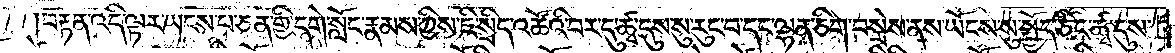།བརྟན་འདི་ལྟར་ཡངས་པ་ཅན་གྱི་དགེ་སློང་རྣམས་ཀྱིས་ཇི་སྲིད་འཚོའི་བར་དུ་ཚྭ་དུས་སུ་རུང་བ་དང་ལྷན་ཅིག་བསྲེས་ནས་ཡོངས་སུ་སྤྱོད་ཅིང་ཚྭ་དུས་
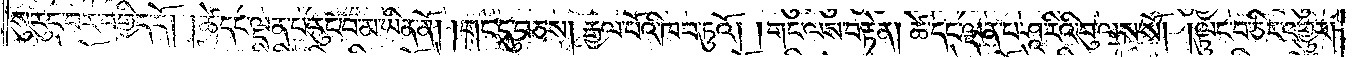སུ་རུང་བར་བགྱིད་དོ། །ཚེ་དང་ལྡན་པ་རུང་བ་མ་ཡིན་ནོ། །གང་དུ་བཅས། རྒྱལ་པོའི་ཁབ་ཏུའོ། །གང་ལས་བརྟེན། ཚེ་དང་ལྡན་པ་ཤཱ་རིའི་བུ་ལས་སོ། །ལྟུང་བ་ཅིར་འགྱུར།
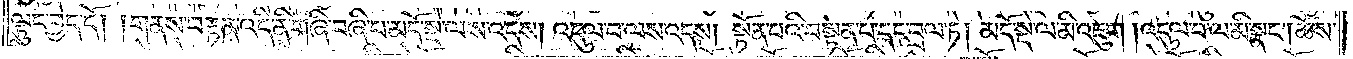ལྟུང་བྱེད་དོ། །གནས་བརྟན་འདི་ནི་གཞི་བཞི་པ་མདོ་སྡེ་ལས་འདས། འདུལ་བ་ལས་འདས། སྟོན་པའི་བསྟན་པ་དང་བྲལ་ཏེ། མདོ་སྡེ་ལ་མི་འཇུག །འདུལ་བ་ལ་མི་སྣང༌། ཆོས་
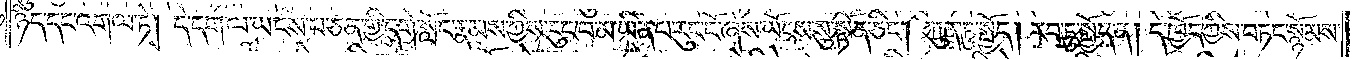ཉིད་དང་འགལ་ཏེ། དེ་དག་ལ་ཡངས་པ་ཅན་གྱི་དགེ་སློང་རྣམས་ཀྱིས་རུང་བ་མ་ཡིན་པ་རུང་ངོ་ཞེས་ཡོངས་སུ་སྟོན་ཅིང༌། ཀུན་ཏུ་སྤྱོད། རབ་ཏུ་སྤྱོད་ན། དེ་ཁྱོད་ཀྱིས་བཏང་སྙོམས་
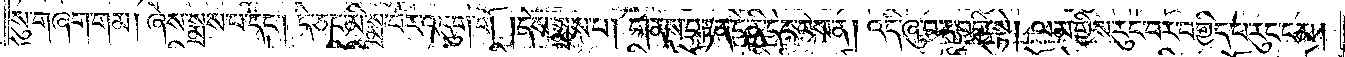སུ་གཞག་གམ། ཞེས་སྨྲས་པ་དང༌། དེ་ཅང་མི་སྨྲ་བར་འདུག་གོ། །དེས་སྨྲས་པ། གནས་བརྟན་དེ་ནི་དེར་བས་ན། འདི་ཞུ་བར་བགྱི་སྟེ། ལམ་གྱིས་རུང་བར་བགྱིད་པ་རུང་ངམ།
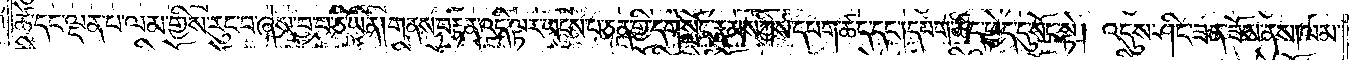ཚེ་དང་ལྡན་པ་ལམ་གྱིས་རུང་བ་ཞེས་བྱ་བ་ཅི་ཡིན། གནས་བརྟན་འདི་ལྟར་ཡངས་པ་ཅན་གྱི་དགེ་སློང་རྣམས་ཀྱིས་དཔག་ཚད་དང༌། དཔག་ཚད་ཕྱེད་དུ་སོང་སྟེ། འདུས་ཤིང་ཟན་ཟོས་ནས། ལམ་
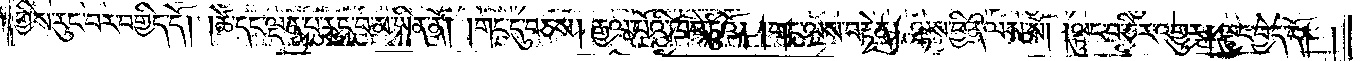གྱིས་རུང་བར་བགྱིད་དོ། །ཚེ་དང་ལྡན་པ་རུང་བ་མ་ཡིན་ནོ། །གང་དུ་བཅས། རྒྱལ་པོའི་ཁབ་ཏུའོ། །གང་ལས་བརྟེན། ལྷས་བྱིན་ལས་སོ། །ལྟུང་བ་ཅིར་འགྱུར། ལྟུང་བྱེད་དོ། །
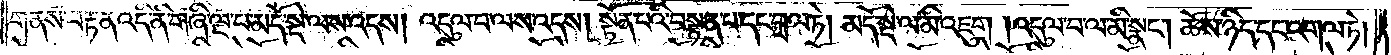གནས་བརྟན་འདི་ནི་གཞི་ལྔ་པ་མདོ་སྡེ་ལས་འདས། འདུལ་བ་ལས་འདས། སྟོན་པའི་བསྟན་པ་དང་བྲལ་ཏེ། མདོ་སྡེ་ལ་མི་འཇུག །འདུལ་བ་ལ་མི་སྣང༌། ཆོས་ཉིད་དང་འགལ་ཏེ།
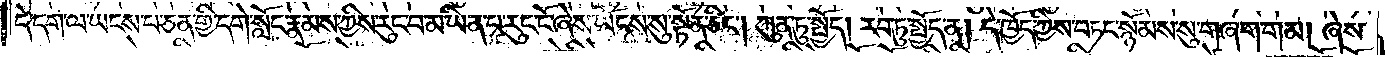དེ་དག་ལ་ཡངས་པ་ཅན་གྱི་དགེ་སློང་རྣམས་ཀྱིས་རུང་བ་མ་ཡིན་པ་རུང་ངོ་ཞེས་ཡོངས་སུ་སྟོན་ཅིང༌། ཀུན་ཏུ་སྤྱོད། རབ་ཏུ་སྤྱོད་ན། དེ་ཁྱོད་ཀྱིས་བཏང་སྙོམས་སུ་གཞག་གམ། ཞེས་
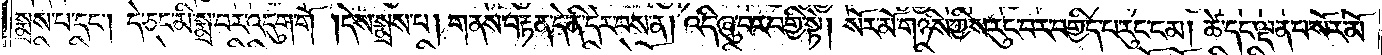སྨྲས་པ་དང༌། དེ་ཅང་མི་སྨྲ་བར་འདུག་གོ །དེས་སྨྲས་པ། གནས་བརྟན་དེ་ནི་དེར་བས་ན། འདི་ཞུ་བར་བགྱི་སྟེ། སོར་མོ་གཉིས་ཀྱིས་རུང་བར་བགྱིད་པ་རུང་ངམ། ཚེ་དང་ལྡན་པ་སོར་མོ་
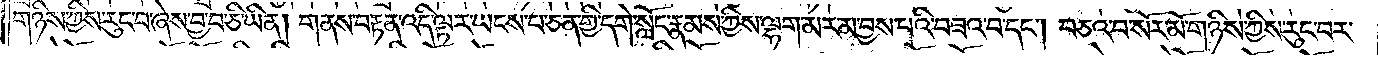གཉིས་ཀྱིས་རུང་བ་ཞེས་བྱ་བ་ཅི་ཡིན། གནས་བརྟན་འདི་ལྟར་ཡངས་པ་ཅན་གྱི་དགེ་སློང་རྣམས་ཀྱིས་ལྷག་མར་མ་བྱས་པའི་བཟའ་བ་དང༌། བཅའ་བ་སོར་མོ་གཉིས་ཀྱིས་རུང་བར་
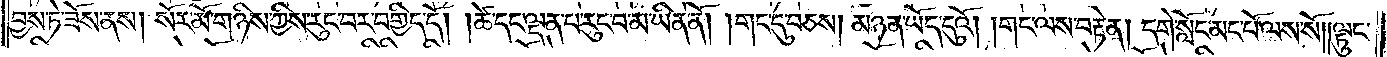བྱས་ཏེ་ཟོས་ནས། སོར་མོ་གཉིས་ཀྱིས་རུང་བར་བགྱིད་དོ། །ཚེ་དང་ལྡན་པ་རུང་བ་མ་ཡིན་ནོ། །གང་དུ་བཅས། མཉན་ཡོད་དུའོ། །གང་ལས་བརྟེན། དགེ་སློང་མང་པོ་ལས་སོ། །ལྟུང་
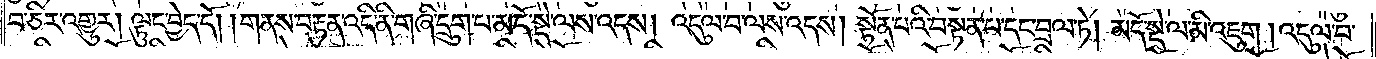བ་ཅིར་འགྱུར། ལྟུང་བྱེད་དོ། །གནས་བརྟན་འདི་ནི་གཞི་དྲུག་པ་མདོ་སྡེ་ལས་འདས། འདུལ་བ་ལས་འདས། སྟོན་པའི་བསྟན་པ་དང་བྲལ་ཏེ། མདོ་སྡེ་ལ་མི་འཇུག །འདུལ་བ་
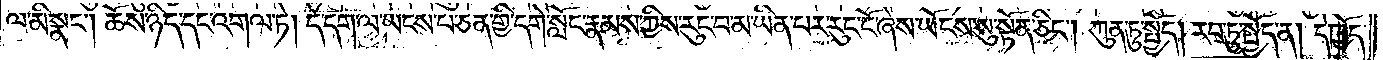ལ་མི་སྣང༌། ཆོས་ཉིད་དང་འགལ་ཏེ། དེ་དག་ལ་ཡངས་པ་ཅན་གྱི་དགེ་སློང་རྣམས་ཀྱིས་རུང་བ་མ་ཡིན་པར་རུང་ངོ་ཞེས་ཡོངས་སུ་སྟོན་ཅིང༌། ཀུན་ཏུ་སྤྱོད། རབ་ཏུ་སྤྱོད་ན། དེ་ཁྱོད་
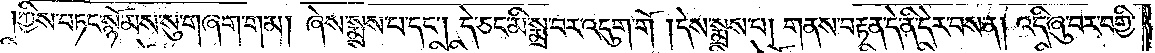ཀྱིས་བཏང་སྙོམས་སུ་གཞག་གམ། ཞེས་སྨྲས་པ་དང༌། དེ་ཅང་མི་སྨྲ་བར་འདུག་གོ །དེས་སྨྲས་པ། གནས་བརྟན་དེ་ནི་དེར་བས་ན། འདི་ཞུ་བར་བགྱི་
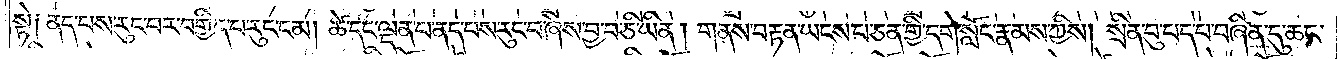སྟེ༑ ནད་པས་རུང་བར་བགྱིད་པ་རུང་ངམ། ཚེ་དང་ལྡན་པ་ནད་པས་རུང་བ་ཞེས་བྱ་བ་ཅི་ཡིན། གནས་བརྟན་ཡངས་པ་ཅན་གྱི་དགེ་སློང་རྣམས་ཀྱིས། སྲིན་བུ་པད་པ་བཞིན་དུ་ཆང་
